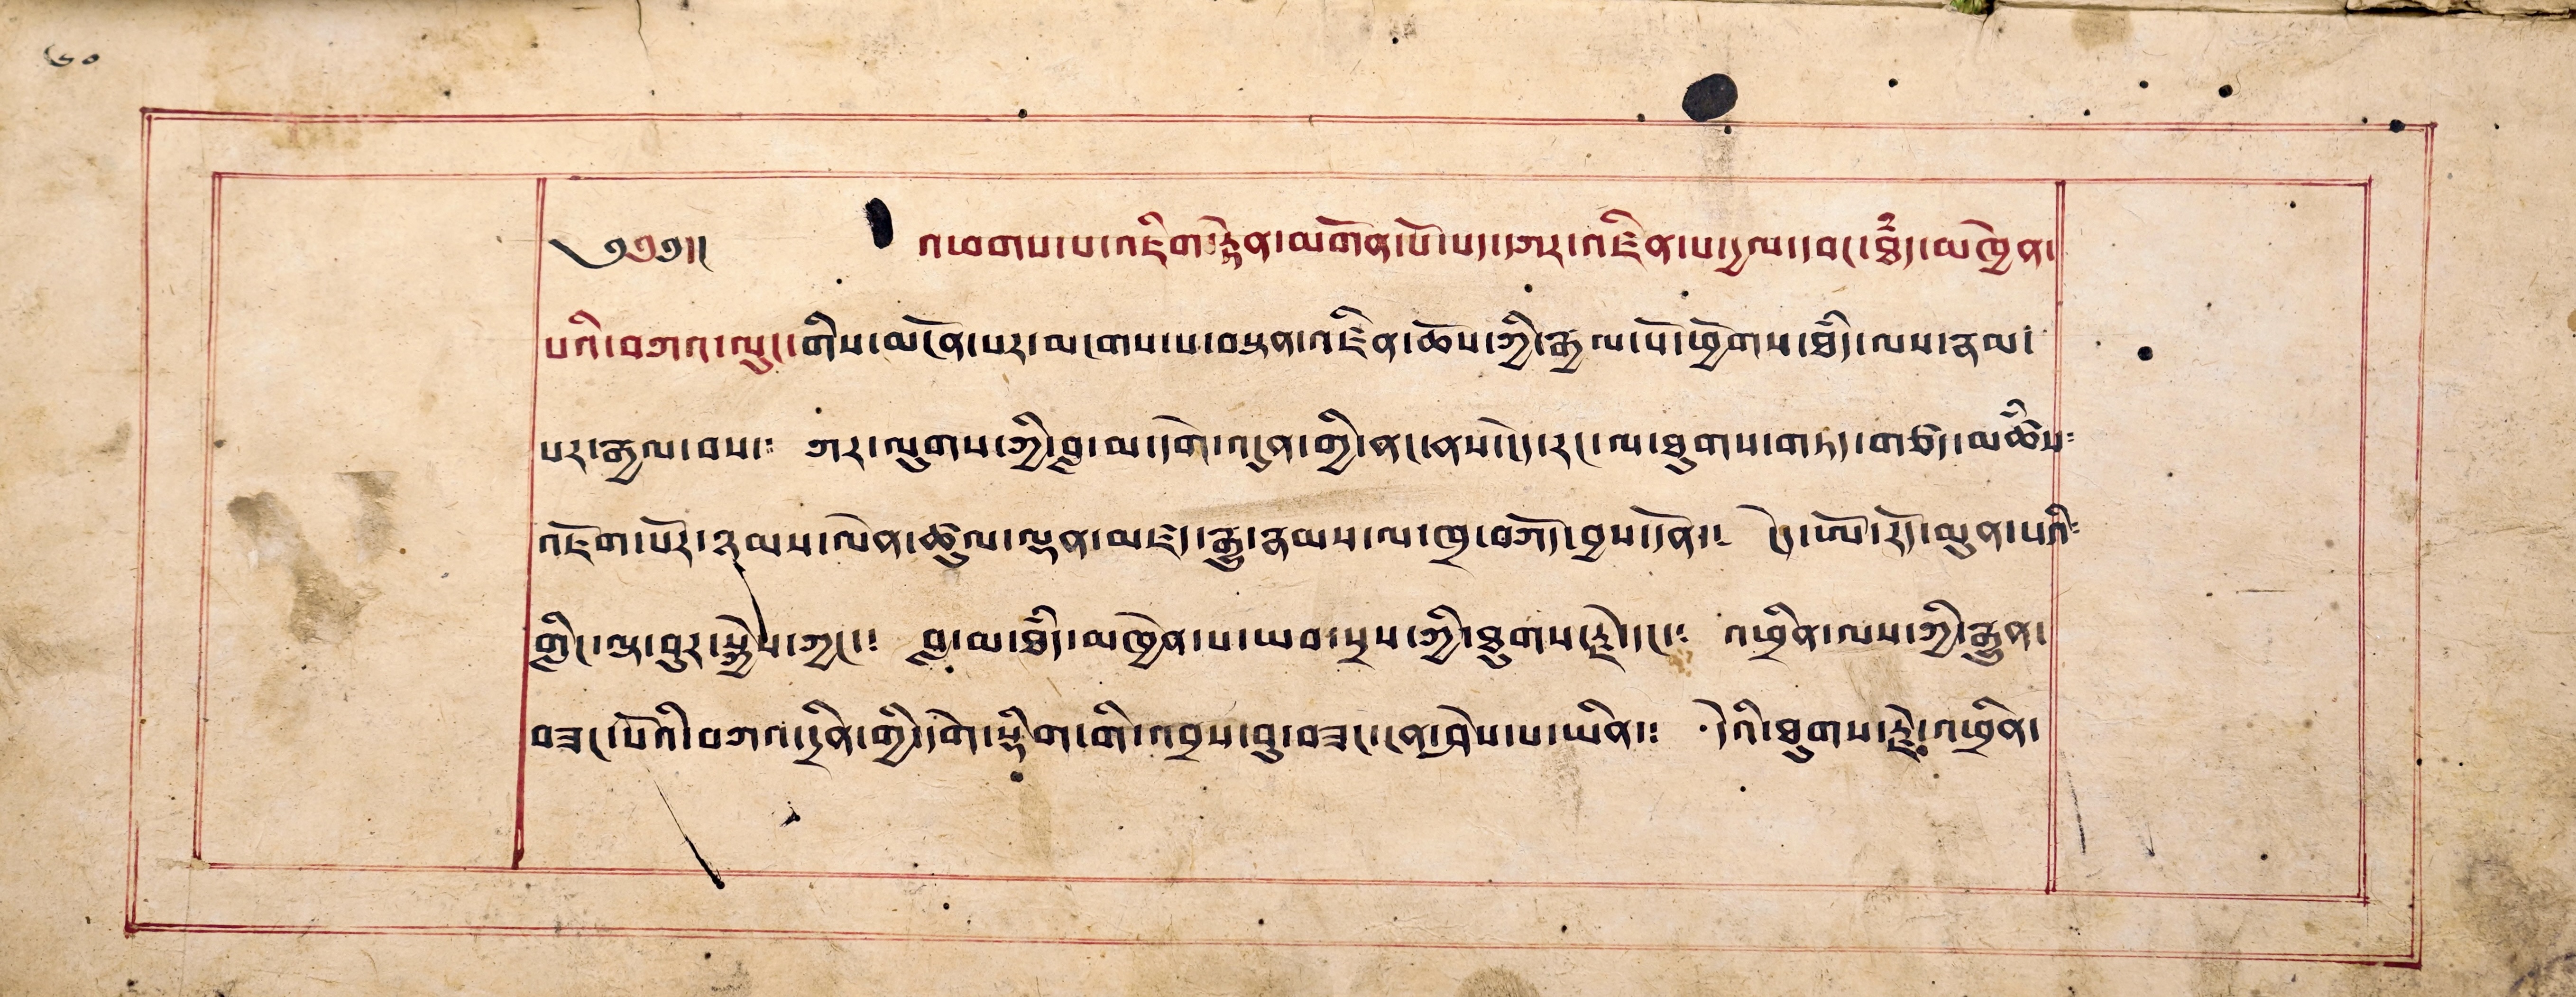༄༅།།  འཕགས་པ་འཇིག་རྟེན་མགོན་པོ་པད་དཀར་འཛིན་པ་དྱལ་དབང་ཐཾད་མཁྱེན་
པའི་བཀའ་ལུང་གིས་མངོན་པར་མངགས་པ་བསྟན་འཛིན་ཆོས་ཀྱི་རྒྱལ་པོ་ཕྱོགས་ཐཾད་ལས་རྣམ་
པར་རྒྱལ་བས། ཀར་ལུགས་ཀྱི་བླ་མ་དགེ་འདུན་གྱི་ནང་ནས་ངེད་རང་ལ་ཐུགས་གཏད་གཙད་མཚཾས་
འཇོག་པོར་ཉམས་ལེན་ཚུལ་ལྡན་མཛད་རྒྱུ་རྣམས་ལ་ཁྲ་བཀོད་བྱས་དོན་། ངེད་ཨོ་རོད་མུན་པའི་
གླིང་ལྟ་བུར་སྐྱེས་ཀྱང་། བླ་མ་ཐཾད་མཁྱེན་པ་ཡབ་སྲས་ཀྱི་ཐུགས་རྗེ་དང་། འཕྲིན་ལས་ཀྱི་རྒྱུན་
བཟང་པོའི་བཀའ་དྲིན་གྱི་དགེ་སྡིག་གི་འབྲས་བུ་བཟང་ངན་ཤེས་པ་ཡིན། དེའི་ཐུགས་རྗེ་འཕྲིན་
